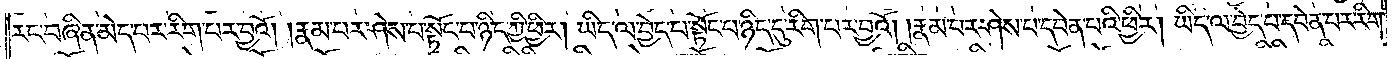རང་བཞིན་མེད་པར་རིག་པར་བྱའོ། །རྣམ་པར་ཤེས་པ་སྟོང་པ་ཉིད་ཀྱི་ཕྱིར། ཡིད་ལ་བྱེད་པ་སྟོང་པ་ཉིད་དུ་རིག་པར་བྱའོ། །རྣམ་པར་ཤེས་པ་དབེན་པའི་ཕྱིར། ཡིད་ལ་བྱེད་པ་དབེན་པར་རིག་
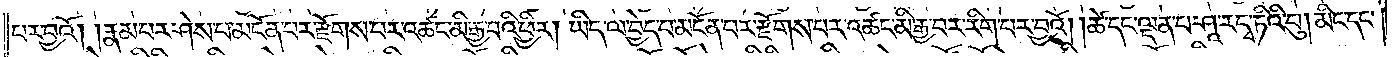པར་བྱའོ། །རྣམ་པར་ཤེས་པ་མངོན་པར་རྫོགས་པར་འཚང་མི་རྒྱ་བའི་ཕྱིར། ཡིད་ལ་བྱེད་པ་མངོན་པར་རྫོགས་པར་འཚང་མི་རྒྱ་བར་རིག་པར་བྱའོ། །ཚེ་དང་ལྡན་པ་ཤཱ་ར་དྭ་ཏིའི་བུ། མིང་དང་
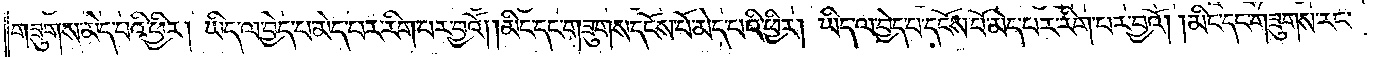གཟུགས་མེད་པའི་ཕྱིར། ཡིད་ལ་བྱེད་པ་མེད་པར་རིག་པར་བྱའོ། །མིང་དང་གཟུགས་དངོས་པོ་མེད་པའི་ཕྱིར། ཡིད་ལ་བྱེད་པ་དངོས་པོ་མེད་པར་རིག་པར་བྱའོ། །མིང་དང་གཟུགས་རང་
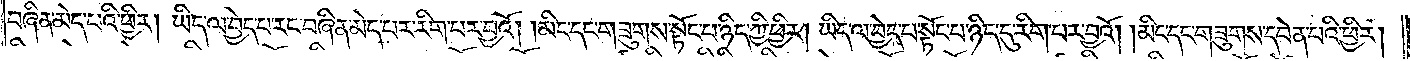བཞིན་མེད་པའི་ཕྱིར། ཡིད་ལ་བྱེད་པ་རང་བཞིན་མེད་པར་རིག་པར་བྱའོ། །མིང་དང་གཟུགས་སྟོང་པ་ཉིད་ཀྱི་ཕྱིར། ཡིད་ལ་བྱེད་པ་སྟོང་པ་ཉིད་དུ་རིག་པར་བྱའོ། །མིང་དང་གཟུགས་དབེན་པའི་ཕྱིར།
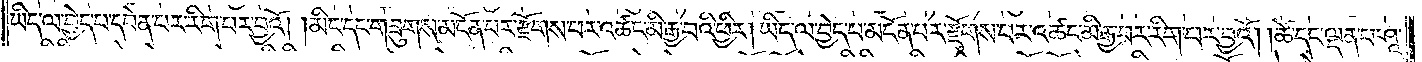ཡིད་ལ་བྱེད་པ་དབེན་པར་རིག་པར་བྱའོ། །མིང་དང་གཟུགས་མངོན་པར་རྫོགས་པར་འཚང་མི་རྒྱ་བའི་ཕྱིར། ཡིད་ལ་བྱེད་པ་མངོན་པར་རྫོགས་པར་འཚང་མི་རྒྱ་བར་རིག་པར་བྱའོ། །ཚེ་དང་ལྡན་པ་ཤཱ་
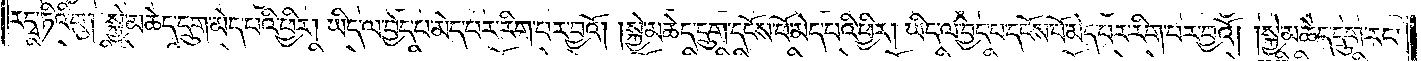ར་དྭ་ཏིའི་བུ། སྐྱེ་མཆེད་དྲུག་མེད་པའི་ཕྱིར། ཡིད་ལ་བྱེད་པ་མེད་པར་རིག་པར་བྱའོ། །སྐྱེ་མཆེད་དྲུག་དངོས་པོ་མེད་པའི་ཕྱིར། ཡིད་ལ་བྱེད་པ་དངོས་པོ་མེད་པར་རིག་པར་བྱའོ། །སྐྱེ་མཆེད་དྲུག་རང་
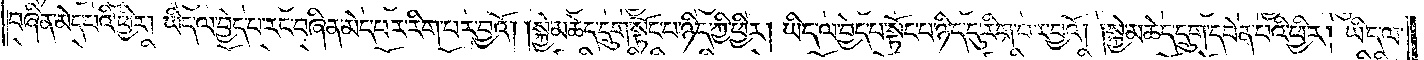བཞིན་མེད་པའི་ཕྱིར། ཡིད་ལ་བྱེད་པ་རང་བཞིན་མེད་པར་རིག་པར་བྱའོ། །སྐྱེ་མཆེད་དྲུག་སྟོང་པ་ཉིད་ཀྱི་ཕྱིར། ཡིད་ལ་བྱེད་པ་སྟོང་པ་ཉིད་དུ་རིག་པར་བྱའོ༑ སྐྱེ་མཆེད་དྲུག་དབེན་པའི་ཕྱིར། ཡིད་ལ་
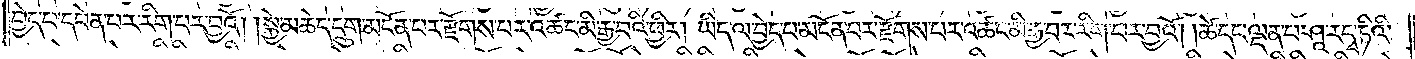བྱེད་པ་དབེན་པར་རིག་པར་བྱའོ། །སྐྱེ་མཆེད་དྲུག་མངོན་པར་རྫོགས་པར་འཚང་མི་རྒྱ་བའི་ཕྱིར། ཡིད་ལ་བྱེད་པ་མངོན་པར་རྫོགས་པར་འཚང་མི་རྒྱ་བར་རིག་པར་བྱའོ། །ཚེ་དང་ལྡན་པ་ཤཱ་ར་དྭ་ཏིའི་
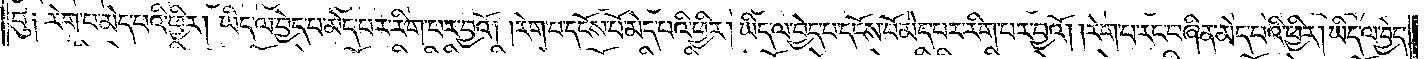བུ༏ རེག་པ་མེད་པའི་ཕྱིར། ཡིད་ལ་བྱེད་པ་མེད་པར་རིག་པར་བྱའོ། །རེག་པ་དངོས་པོ་མེད་པའི་ཕྱིར། ཡིད་ལ་བྱེད་པ་དངོས་པོ་མེད་པར་རིག་པར་བྱའོ། །རེག་པ་རང་བཞིན་མེད་པའི་ཕྱིར། ཡིད་ལ་བྱེད་
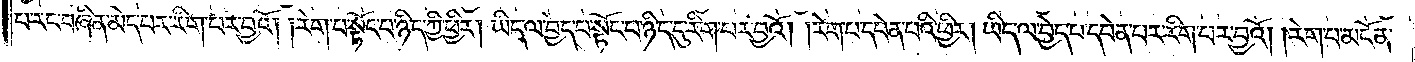པ་རང་བཞིན་མེད་པར་རིག་པར་བྱའོ། །རེག་པ་སྟོང་པ་ཉིད་ཀྱི་ཕྱིར། ཡིད་ལ་བྱེད་པ་སྟོང་པ་ཉིད་དུ་རིག་པར་བྱའོ། །རེག་པ་དབེན་པའི་ཕྱིར། ཡིད་ལ་བྱེད་པ་དབེན་པར་རིག་པར་བྱའོ། །རེག་པ་མངོན་
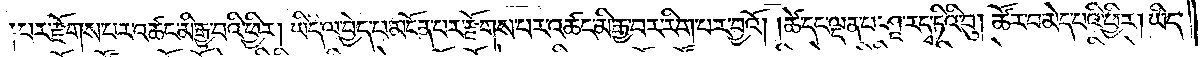པར་རྫོགས་པར་འཚང་མི་རྒྱ་བའི་ཕྱིར། ཡིད་ལ་བྱེད་པ་མངོན་པར་རྫོགས་པར་འཚང་མི་རྒྱ་བར་རིག་པར་བྱའོ། །ཚེ་དང་ལྡན་པ་ཤཱ་ར་དྭ་ཏིའི་བུ། ཚོར་བ་མེད་པའི་ཕྱིར། ཡིད་
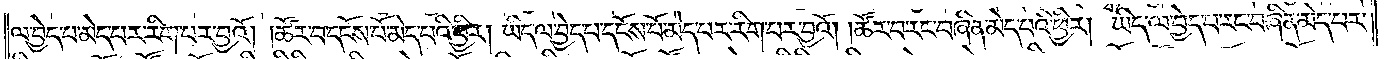ལ་བྱེད་པ་མེད་པར་རིག་པར་བྱའོ། །ཚོར་བ་དངོས་པོ་མེད་པའི་ཕྱིར། ཡིད་ལ་བྱེད་པ་དངོས་པོ་མེད་པར་རིག་པར་བྱའོ། །ཚོར་བ་རང་བཞིན་མེད་པའི་ཕྱིར། ཡིད་ལ་བྱེད་པ་རང་བཞིན་མེད་པར་
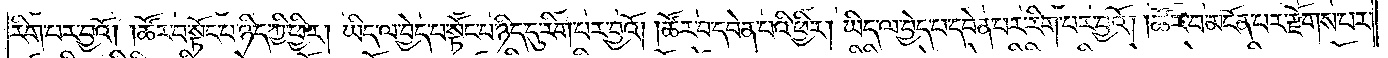རིག་པར་བྱའོ། །ཚོར་བ་སྟོང་པ་ཉིད་ཀྱི་ཕྱིར། ཡིད་ལ་བྱེད་པ་སྟོང་པ་ཉིད་དུ་རིག་པར་བྱའོ། །ཚོར་བ་དབེན་པའི་ཕྱིར། ཡིད་ལ་བྱེད་པ་དབེན་པར་རིག་པར་བྱའོ། །ཚོར་བ་མངོན་པར་རྫོགས་པར་
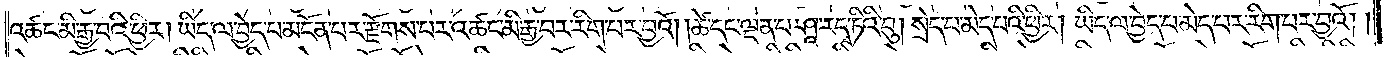འཚང་མི་རྒྱ་བའི་ཕྱིར། ཡིད་ལ་བྱེད་པ་མངོན་པར་རྫོགས་པར་འཚང་མི་རྒྱ་བར་རིག་པར་བྱའོ། །ཚེ་དང་ལྡན་པ་ཤཱ་ར་དྭ་ཏིའི་བུ། སྲེད་པ་མེད་པའི་ཕྱིར། ཡིད་ལ་བྱེད་པ་མེད་པར་རིག་པར་བྱའོ། །
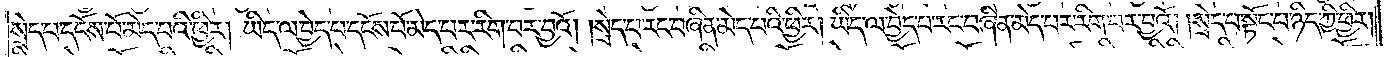སྲེད་པ་དངོས་པོ་མེད་པའི་ཕྱིར། ཡིད་ལ་བྱེད་པ་དངོས་པོ་མེད་པར་རིག་པར་བྱའོ། །སྲེད་པ་རང་བཞིན་མེད་པའི་ཕྱིར། ཡིད་ལ་བྱེད་པ་རང་བཞིན་མེད་པར་རིག་པར་བྱའོ། །སྲེད་པ་སྟོང་པ་ཉིད་ཀྱི་ཕྱིར།
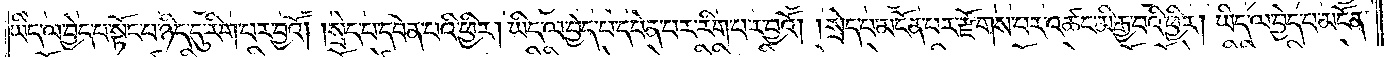ཡིད་ལ་བྱེད་པ་སྟོང་པ་ཉིད་དུ་རིག་པར་བྱའོ། །སྲེད་པ་དབེན་པའི་ཕྱིར། ཡིད་ལ་བྱེད་པ་དབེན་པར་རིག་པར་བྱའོ། །སྲེད་པ་མངོན་པར་རྫོགས་པར་འཚང་མི་རྒྱ་བའི་ཕྱིར། ཡིད་ལ་བྱེད་པ་མངོན་
